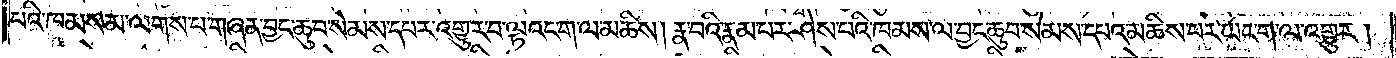པའི་ཁམས་མ་ལགས་པ་གཞན་བྱང་ཆུབ་སེམས་དཔར་འགྱུར་བ་ལྟའང་ག་ལ་མཆིས། རྣ་བའི་རྣམ་པར་ཤེས་པའི་ཁམས་ལ་བྱང་ཆུབ་སེམས་དཔའ་མཆིས་པར་ཡང་ག་ལ་འགྱུར།
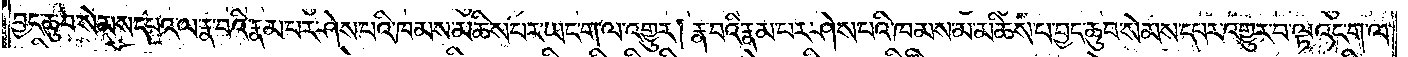བྱང་ཆུབ་སེམས་དཔའ་ལ་རྣ་བའི་རྣམ་པར་ཤེས་པའི་ཁམས་མཆིས་པར་ཡང་ག་ལ་འགྱུར། རྣ་བའི་རྣམ་པར་ཤེས་པའི་ཁམས་མ་མཆིས་པ་བྱང་ཆུབ་སེམས་དཔར་འགྱུར་བ་ལྟའང་ག་ལ་
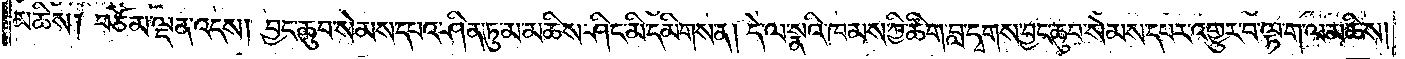མཆིས། བཅོམ་ལྡན་འདས། བྱང་ཆུབ་སེམས་དཔའ་ཤིན་ཏུ་མ་མཆིས་ཤིང་མི་དམིགས་ན། དེ་ལ་སྣའི་ཁམས་ཀྱི་ཚིག་བླ་དྭགས་བྱང་ཆུབ་སེམས་དཔར་འགྱུར་བ་ལྟ་ག་ལ་མཆིས།
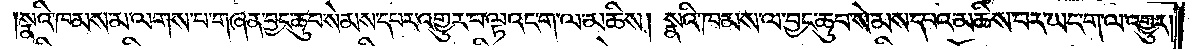སྣའི་ཁམས་མ་ལགས་པ་གཞན་བྱང་ཆུབ་སེམས་དཔར་འགྱུར་བ་ལྟའང་ག་ལ་མཆིས། སྣའི་ཁམས་ལ་བྱང་ཆུབ་སེམས་དཔའ་མཆིས་པར་ཡང་ག་ལ་འགྱུར།
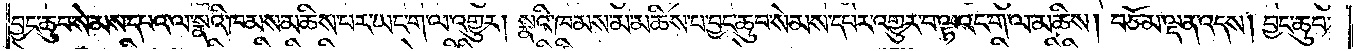བྱང་ཆུབ་སེམས་དཔའ་ལ་སྣའི་ཁམས་མཆིས་པར་ཡང་ག་ལ་འགྱུར། སྣའི་ཁམས་མ་མཆིས་པ་བྱང་ཆུབ་སེམས་དཔར་འགྱུར་བ་ལྟའང་ག་ལ་མཆིས། བཅོམ་ལྡན་འདས། བྱང་ཆུབ་
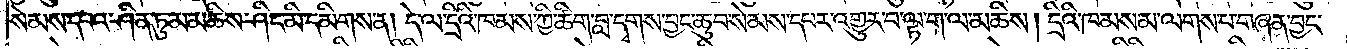སེམས་དཔའ་ཤིན་ཏུ་མ་མཆིས་ཤིང་མི་དམིགས་ན། དེ་ལ་དྲིའི་ཁམས་ཀྱི་ཚིག་བླ་དྭགས་བྱང་ཆུབ་སེམས་དཔར་འགྱུར་བ་ལྟ་ག་ལ་མཆིས། དྲིའི་ཁམས་མ་ལགས་པ་གཞན་བྱང་
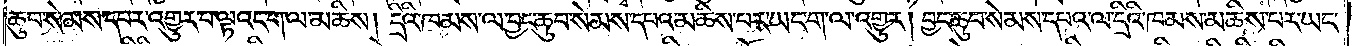ཆུབ་སེམས་དཔར་འགྱུར་བ་ལྟའང་ག་ལ་མཆིས། དྲིའི་ཁམས་ལ་བྱང་ཆུབ་སེམས་དཔའ་མཆིས་པར་ཡང་ག་ལ་འགྱུར། བྱང་ཆུབ་སེམས་དཔའ་ལ་དྲིའི་ཁམས་མཆིས་པར་ཡང་
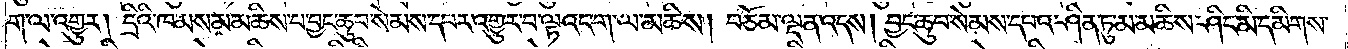ག་ལ་འགྱུར། དྲིའི་ཁམས་མ་མཆིས་པ་བྱང་ཆུབ་སེམས་དཔར་འགྱུར་བ་ལྟའང་ག་ལ་མཆིས། བཅོམ་ལྡན་འདས། བྱང་ཆུབ་སེམས་དཔའ་ཤིན་ཏུ་མ་མཆིས་ཤིང་མི་དམིགས་
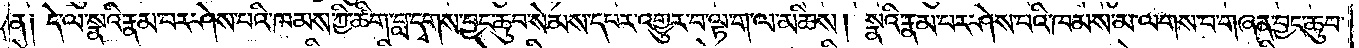ན༑ དེ་ལ་སྣའི་རྣམ་པར་ཤེས་པའི་ཁམས་ཀྱི་ཚིག་བླ་དྭགས་བྱང་ཆུབ་སེམས་དཔར་འགྱུར་བ་ལྟ་ག་ལ་མཆིས། སྣའི་རྣམ་པར་ཤེས་པའི་ཁམས་མ་ལགས་པ་གཞན་བྱང་ཆུབ་
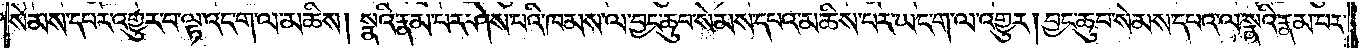སེམས་དཔར་འགྱུར་བ་ལྟ་འང་ག་ལ་མཆིས། སྣའི་རྣམ་པར་ཤེས་པའི་ཁམས་ལ་བྱང་ཆུབ་སེམས་དཔའ་མཆིས་པར་ཡང་ག་ལ་འགྱུར། བྱང་ཆུབ་སེམས་དཔའ་ལ་སྣའི་རྣམ་པར་
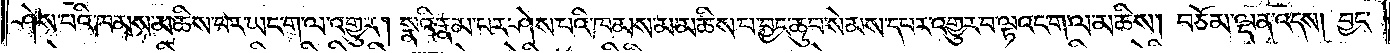ཤེས་པའི་ཁམས་མཆིས་པར་ཡང་ག་ལ་འགྱུར། སྣའི་རྣམ་པར་ཤེས་པའི་ཁམས་མ་མཆིས་པ་བྱང་ཆུབ་སེམས་དཔར་འགྱུར་བ་ལྟའང་ག་ལ་མཆིས། བཅོམ་ལྡན་འདས། བྱང་
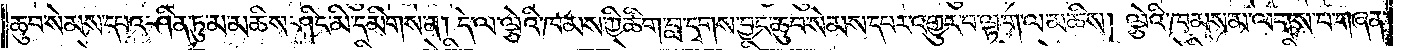ཆུབ་སེམས་དཔའ་ཤིན་ཏུ་མ་མཆིས་ཤིང་མི་དམིགས་ན། དེ་ལ་ལྕེའི་ཁམས་ཀྱི་ཚིག་བླ་དྭགས་བྱང་ཆུབ་སེམས་དཔར་འགྱུར་བ་ལྟ་ག་ལ་མཆིས། ལྕེའི་ཁམས་མ་ལགས་པ་གཞན་
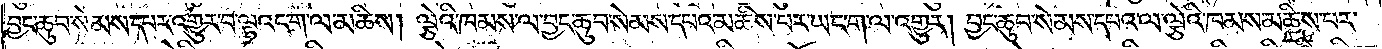བྱང་ཆུབ་སེམས་དཔར་འགྱུར་བ་ལྟའང་ག་ལ་མཆིས། ལྕེའི་ཁམས་ལ་བྱང་ཆུབ་སེམས་དཔའ་མཆིས་པར་ཡང་ག་ལ་འགྱུར། བྱང་ཆུབ་སེམས་དཔའ་ལ་ལྕེའི་ཁམས་མཆིས་པར་
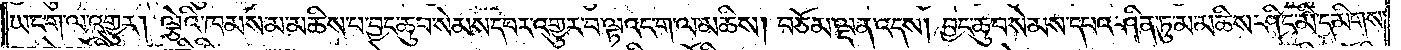ཡང་ག་ལ་འགྱུར། ལྕེའི་ཁམས་མ་མཆིས་པ་བྱང་ཆུབ་སེམས་དཔར་འགྱུར་བ་ལྟའང་ག་ལ་མཆིས། བཅོམ་ལྡན་འདས། བྱང་ཆུབ་སེམས་དཔའ་ཤིན་ཏུ་མ་མཆིས་ཤིང་མི་དམིགས་
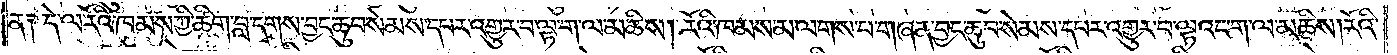ན༑ དེ་ལ་རོའི་ཁམས་ཀྱི་ཚིག་བླ་དྭགས་བྱང་ཆུབ་སེམས་དཔར་འགྱུར་བ་ལྟ་ག་ལ་མཆིས། རོའི་ཁམས་མ་ལགས་པ་གཞན་བྱང་ཆུབ་སེམས་དཔར་འགྱུར་བ་ལྟའང་ག་ལ་མཆིས། རོའི་
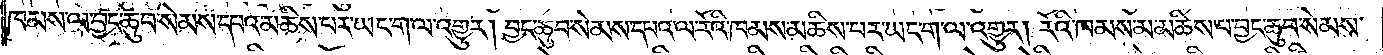ཁམས་ལ་བྱང་ཆུབ་སེམས་དཔའ་མཆིས་པར་ཡང་ག་ལ་འགྱུར། བྱང་ཆུབ་སེམས་དཔའ་ལ་རོའི་ཁམས་མཆིས་པར་ཡང་ག་ལ་འགྱུར། རོའི་ཁམས་མ་མཆིས་པ་བྱང་ཆུབ་སེམས་
